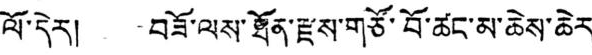ལོ་དེར། བཟོ་ལས་ཐོན་རྫས་གཙོ་བོ་ཚང་མ་ཆེས་ཆེར་
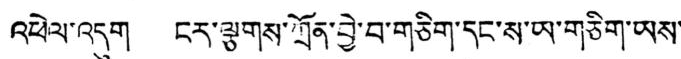འཕེལ་འདུག ངར་ལྕགས་ཀྲོན་བྱེ་བ་གཅིག་དང་ས་ཡ་གཅིག་ཡས་
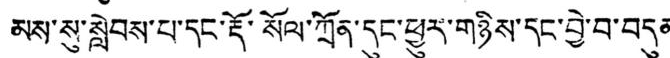མས་སུ་སླེབས་པ་དང་རྡོ་སོལ་ཀྲོན་དུང་ཕྱུར་གཉིས་དང་བྱེ་བ་བདུན་
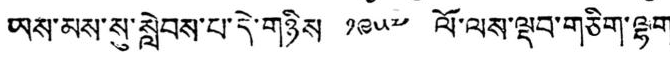ཡས་མས་སུ་སླེབས་པ་དེ་གཉིས ༡༩༥༧ ལོ་ལས་ལྡབ་གཅིག་ལྷག་
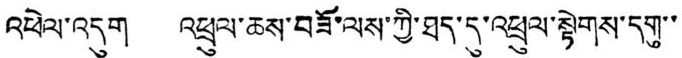འཕེལ་འདུག འཕྲུལ་ཆས་བཟོ་ལས་ཀྱི་ཐད་དུ་འཕྲུལ་སྟེགས་དགུ་་
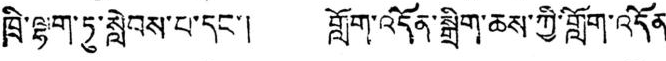ཁྲི་ལྷག་ཏུ་སླེབས་པ་དང་། གློག་འདོན་སྒྲིག་ཆས་ཀྱི་གློག་འདོན་
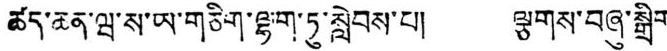ཚད་ཆན་ཝ་ས་ཡ་གཅིག་ལྷག་ཏུ་སླེབས་པ། ལྕགས་བཞུ་སྒྲིག་
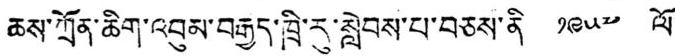ཆས་ཀྲོན་ཆིག་འབུམ་བརྒྱད་ཁྲི་རུ་སླེབས་པ་བཅས་ནི ༡༩༥༧ ལོ་
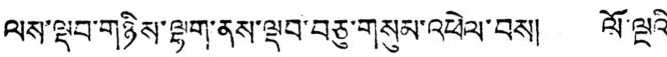ལས་ལྡབ་གཉིས་ལྷག་ནས་ལྡབ་བཅུ་གསུམ་འཕེལ་བས། ལོ་ལྔའི་
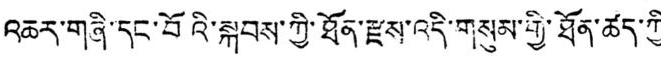འཆར་གཞི་དང་བོའི་སྐབས་ཀྱི་ཐོན་རྫས་འདི་གསུམ་གྱི་ཐོན་ཚད་ཀྱི་
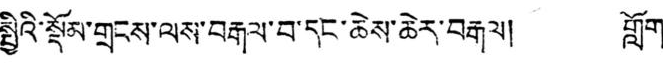སྤྱིའི་སྡོམ་གྲངས་ལས་བརྒལ་བ་དང་ཆེས་ཆེར་བརྒལ། གློག་
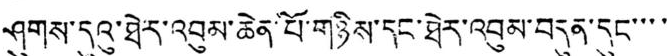ཤུགས་དུའུ་ཐེར་འབུམ་ཆེན་པོ་གཉིས་དང་ཐེར་འབུམ་བདུན་དུང་་་་་
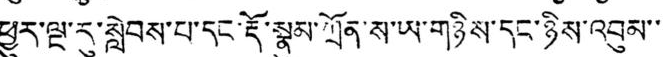ཕྱུར་ལྔ་རུ་སླེབས་པ་དང་རྡོ་སྣུམ་ཀྲོན་ས་ཡ་གཉིས་དང་ཉིས་འབུམ་་་
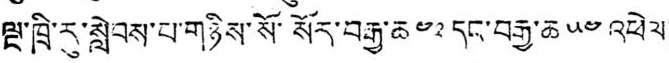ལྔ་ཁྲི་རུ་སླེབས་པ་གཉིས་སོ་སོར་བརྒྱ་ཆ ༤༢ དང་བརྒྱ་ཆ ༥༤ འཕེལ།
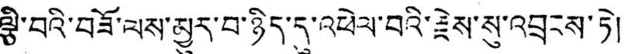ལྕི་བའི་བཟོ་ལས་མྱུར་བ་ཉིད་དུ་འཕེལ་བའི་རྗེས་སུ་འབྲངས་ཏེ།
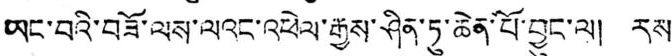ཡང་བའི་བཟོ་ལས་ལའང་འཕེལ་རྒྱས་ཤིན་ཏུ་ཆེན་པོ་བྱུང་ལ། རས་
